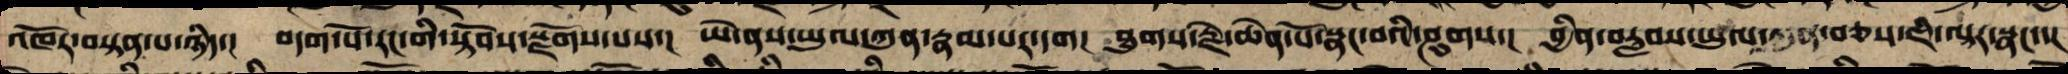འཁོར་བསྟན་པ་ཉིད་། བདག་པོ་རང་གི་སྟོབས་སྫོགས་པས་། ཡེ་ནས་ཡུལ་ཀུན་རྣམ་པར་དག། ཐུགས་རྗེ་ཆེན་པོ་སྣང་བའི་ཤུགས་། བྱིན་རླབས་ཡུལ་བཅས་ཇི་ལྟར་སྣང་་།
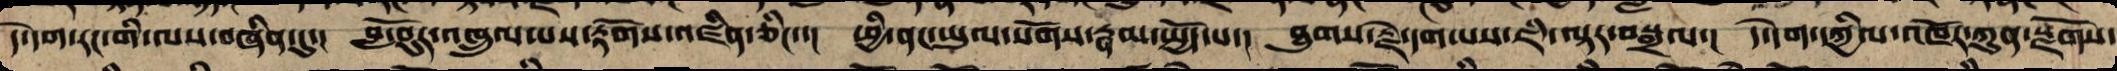དེ་དག་རང་གི་ལས་བཞིན་དུ་། གློ་བུར་འཁྲུལ་པས་རྟོགས་འཛིན་ཅིང་་། ཕྱི་ནང་ཡུལ་སོགས་རྣམ་སྤྱོད་པ་། ཐུགས་རྗེ་དག་པས་ཇི་ལྟར་བསྒྲལ་། དེ་དག་དཀྱིལ་འཁོར་ཀུན་སྫོགས་
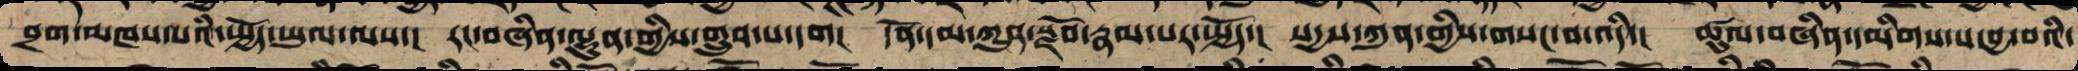བྲག་མཁས་པའི་སྤྱོད་ཡུལ་ལས་། རང་བཞིན་ལྷུན་གྱིས་གྲུབ་པ་དག། དོན་དམ་ཀུན་སྫོབ་རྣམ་པར་སྤྱོད་། སདྱས་ཀུན་གྱི་གསང་བ་འདི་། ཚུལ་བཞིན་དམིགས་པར་བྱ་བའི་
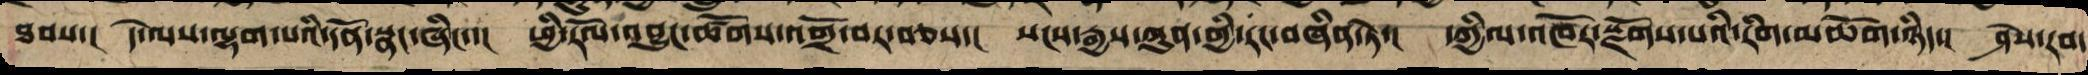ཐབས་། དེ་ལས་ལྷག་པའི་དོན་སྣང་ཞིང་་། ཕྱི་རོལ་འབྱུང་ཚོགས་འགྲོ་བར་བཅས་། སངས་རྒྱས་ཀུན་གྱི་རང་བཞིན་ཏེ་། དཀྱིལ་འཁོར་སྫོགས་པའི་རིགས་མཆོག་ཉིད་། ཤེས་རབ་
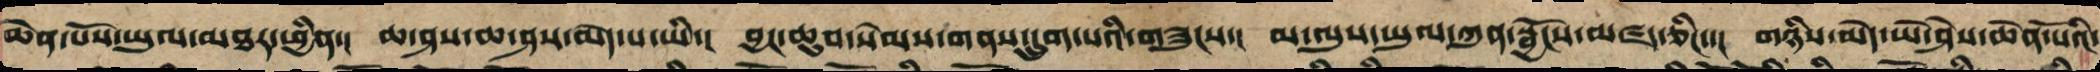ཆེན་པོས་ཡུལ་མཐར་ཕྱིན་། ཆ་ཤས་ཆ་ཤས་མེད་པ་ཡི་། བྱང་ཆུབ་སེམས་གནས་དྲུག་པའི་གཟུངས་། མ་ལུས་ཡུལ་ཀུན་སྦྱོང་མཛད་ཅིང་་། གཉིས་མེད་ཡེ་ཤེས་ཆེན་པོའི་
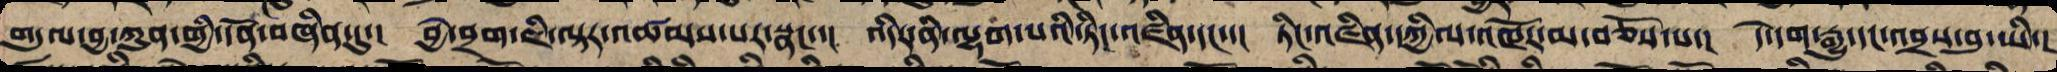གདུལ་བྱ་ཀུན་གྱི་དོན་བཞིན་དུ་། བྱེ་བྲག་ཇི་ལྟར་འཚམས་པར་སྣང་་། འདིར་ནི་ལྷག་པའི་ཏིང་འཛིན་དང་་། ཏིང་འཛིན་དཀྱིལ་འཁོར་མ་བཅོས་པ་། དེ་དག་རྒྱུ་དང་འབྲས་བུ་ཡི་།
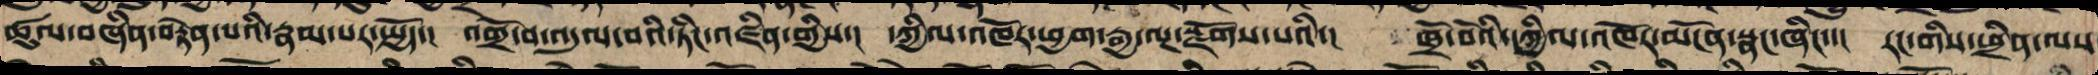ཚུལ་བཞིན་བརྟེན་པའི་རྣམ་པར་སྤྱོད་། འགྲོ་བ་འདུལ་བའི་ཏིང་འཛིན་གྱིས་། དཀྱིལ་འཁོར་ཕྱག་རྒྱ་སྔགས་སྫོགས་པའི་། ཁྲོ་བོའི་དཀྱིལ་འཁོར་མངོན་སྣང་ཞིང་་། རང་གི་ཕྲིན་ལས
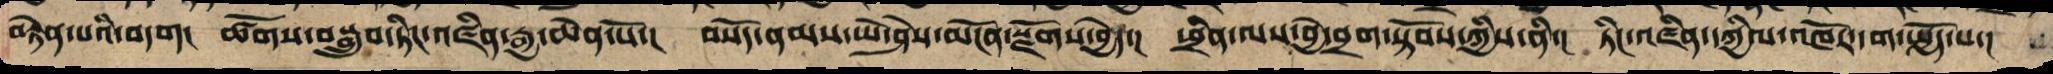བརྟེན་པའི་བདག། ཚོགས་སྒྲུབ་ཏིང་འཛིན་རྒྱ་ཆེན་པོ་། བསོད་ནམས་ཡེ་ཤེས་མངོན་སྫོགས་བྱེད་། ཕྲིན་ལས་བྱེ་བྲག་སྟོབས་ཀྱི་ནི་། ཏིང་འཛིན་དཀྱིལ་འཁོར་དག་སྤྱོད་པ་།
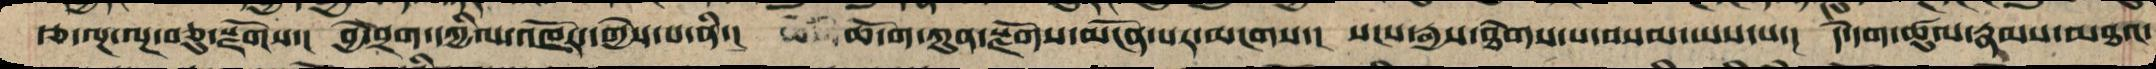རྩ་ལྔ་ལྔ་བཅུ་སྫོགས་། བྱེ་བྲག་དཀྱིལ་འཁོར་རྒྱས་པ་ནི་། ཆོ་ག་ཀུན་སྫོགས་མངོན་པར་མངགས་། སངས་རྒྱས་ཐེག་པ་བསམ་ཡས་པ་། དེ་དག་ཚུལ་རྣམས་མཐའ་
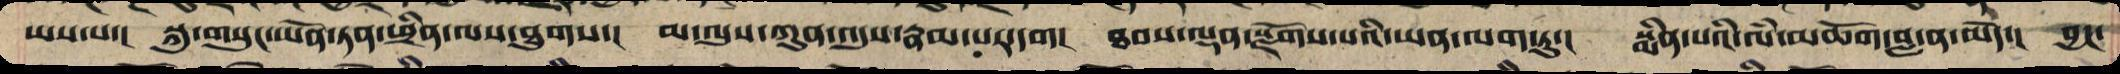ཡས་པ་། སྐུ་གསུང་ཡོན་ཏན་ཕྲིན་ལས་ཐུགས་། མ་ལུས་ཀུན་འདུས་རྣམ་པར་དག། ཐབས་ལྡན་སྫོགས་པའི་ཡན་ལག་ཏུ་། སྨིན་པའི་ལཾ་མཆོག་བླ་ན་མེད་། བྱང་
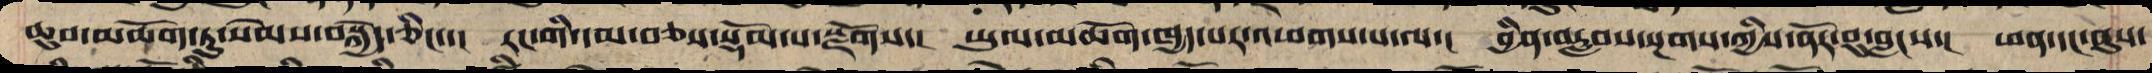ཆུབ་མཆོག་ཏུ་སེམས་བསྐྱེད་ཅིང་་། རང་གི་དམ་བཅས་སྡོམ་པ་སྫོགས། ཡུལ་མཆོག་ཁྱད་པར་འཕགས་པ་ལ་། བྱིན་རླབས་སྔགས་ཀྱིས་ནོར་བུ་བླངས་། ཕན་དང་ནུས་
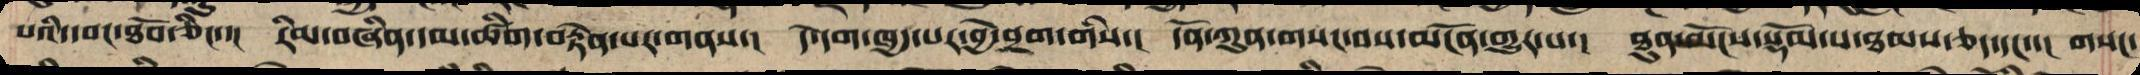པའི་དབང་ཐོབ་ཅིང་་། རིམ་བཞིན་དམ་ཚིག་བརྟེན་པར་གནས་། དེ་དག་ཁྱད་པར་བྱེ་བྲག་གིས་། དོན་ཀུན་གསང་བ་མངོན་གྱུར་པ་། ཐུན་མོང་སྡོམ་པ་ཐམས་ཅད་དང་་། གསང་
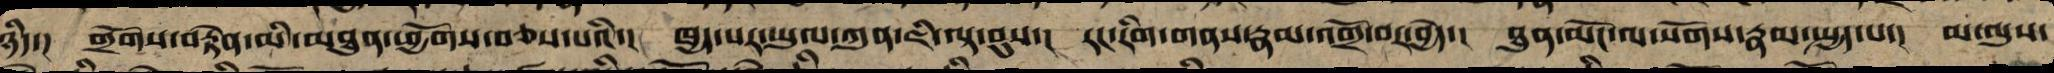ཉིད་། གྲོགས་བརྟེན་མི་མཐུན་ཕྱོགས་བཅས་པའི་། ཁྱད་པར་ཡུལ་ཀུན་ཇི་ལྟ་བུས་། རང་རིག་གནས་རྣམས་འགྲོ་བར་བྱེད་། ཐུན་མོང་ལ་སོགས་རྣམས་སྤྱད་པ་། མ་ལུས་
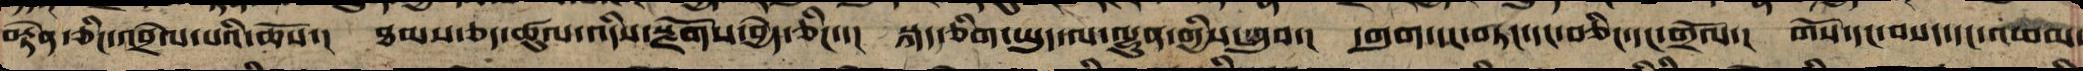བརྟེན་ཅིང་འདྲེལ་བའི་ཆོས་། ཐམས་ཅད་ཚུལ་འདིས་སྫོགས་བྱེད་ཅིང་་། སྐད་ཅིག་ཡུད་ལ་ལྷུན་གྱིས་འགྲུབ་། དགུག་དང་གཏང་དང་བཅིང་དང་དགྲོལ་། གསོ་དང་གསད་དང་འཕམ་
